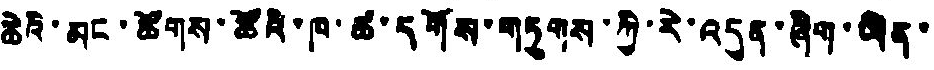ཆེའི་མང་ཚོགས་ཚོའི་ཁ་ཚ་དགོས་གཏགས་ཀྱི་རེ་འདུན་ཞིག་ཡིན་
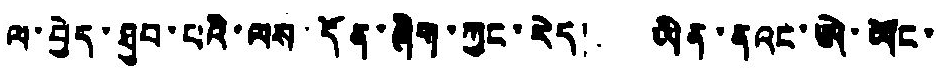ལ་བྱེད་ཐུབ་པའི་ལས་དོན་ཞིག་ཀྱང་རེད། ཡིན་ནའང་ཨེ་ཡོང་
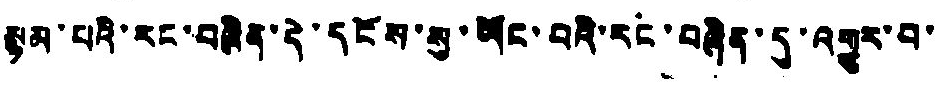སྙམ་པའི་རང་བཞིན་དེ་དངོས་སུ་ཡོང་བའི་རང་བཞིན་དུ་འགྱུར་བ་
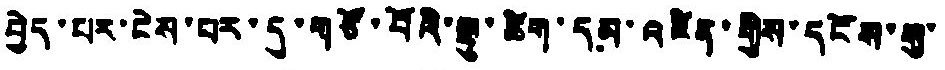བྱེད་པར་ངེས་པར་དུ་གཙོ་བོའི་ལྷུ་ཚིག་དམ་འཛིན་གྱིས་དངོས་སུ་
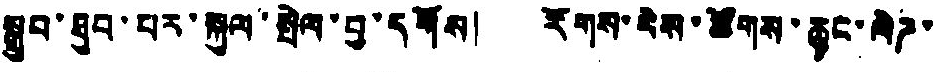སྒྲུབ་ཐུབ་པར་སྐུལ་སྤེལ་བྱ་དུགོས། རོགས་རེས་ཚོགས་ཆུང་ལེཌ་
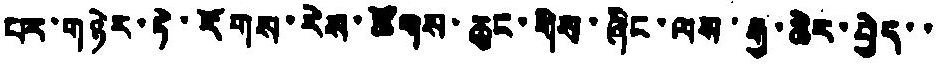པར་གཉེར་ཏེ་རོགས་རེས་ཚིགས་ཆུང་གིས་ཞིང་ལས་རྒྱ་ཆིར་བྱེད་་
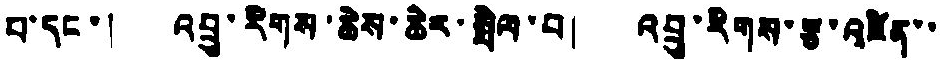པ་དང་། འབྲུ་རིགས་ཆིས་ཆིར་སྒྲིལ་བ། འབྲུ་རིགས་རྩ་འཛིན་་
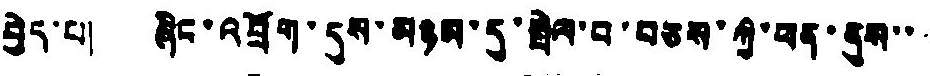བྱེད་པ། ཞིང་འབྲོག་དུས་མཉམ་དུ་སྤེལ་བ་བཅས་ཀྱི་ཕན་ནུས་་་
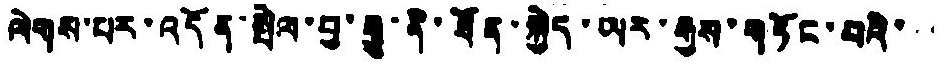ལེགས་པར་འདོན་སྤེལ་བྱ་རྒྱུ་ནི་ཐོན་སྐྱེད་ཡར་རྒྱས་གཏོང་བའི་་
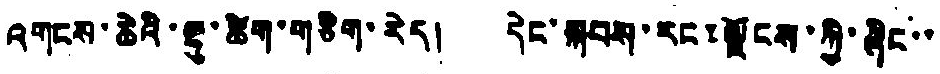འགངས་ཆེའི་རྡུ་ཚིག་གཅིག་རེད། དེང་སྐབས་རང་ལྗོངས་ཀྱི་ཞིང་་
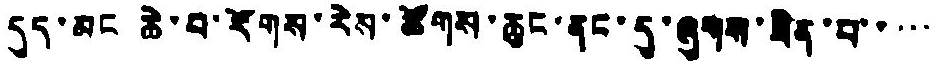དུད་མང ཆེ་བ་རོགས་རེས་ཚོགས་ཆུང་ནང་དུ་ཞུགས་ཟིན་པ་་་་་
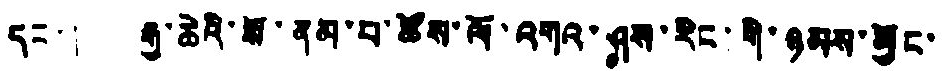དང་། རྒྱ་ཆེའི་སོ་ནམ་པ་ཚོས་ལོ་འགའ་ཤས་རིང་གི་ཉམས་མྱོང་
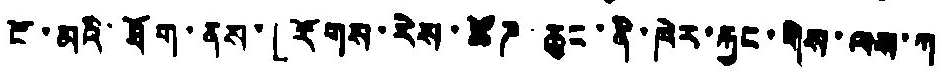ངོ་མའི་ཐོག་ནས་「རོགས་རེས་ཚོཌ་ཆུང་ནི་ཁེར་རྐྱང་གིས་ལས་ཀ
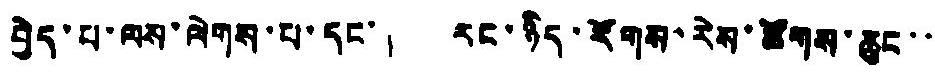བྱེད་པ་ལས་ལེགས་པ་དང་། རང་ཉིད་རོགས་རེས་ཚོགས་ཆུང་་
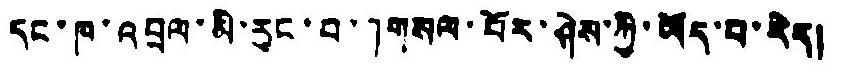དང་ཁ་འབྲལ་མི་རུང་བ་」གསལ་པོར་ཤེས་ཀྱི་ཡོད་པ་རེད།
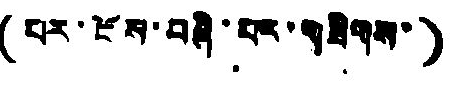(པར་ངོས་བཞི་པར་གཟིགས་)
